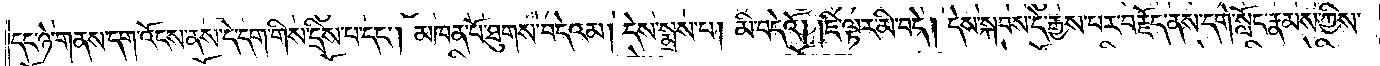དང་ཉེ་གནས་དག་འོངས་ནས་དེ་དག་གིས་དྲིས་པ་དང༌། མཁན་པོ་ཐུགས་བདེའམ། དེས་སྨྲས་པ། མི་བདེའོ། །ཇི་ལྟར་མི་བདེ། དེས་སྐབས་དེ་རྒྱས་པར་བརྗོད་ནས་དགེ་སློང་རྣམས་ཀྱིས་
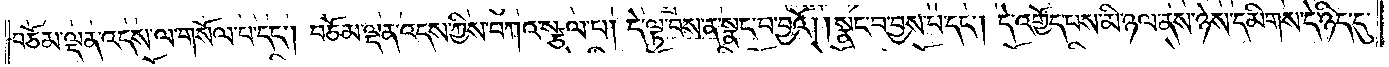བཅོམ་ལྡན་འདས་ལ་གསོལ་པ་དང༌། བཅོམ་ལྡན་འདས་ཀྱིས་བཀའ་སྩལ་པ། དེ་ལྟ་བས་ན་སྣང་བ་བྱའོ། །སྣང་བ་བྱས་པ་དང༌། དེ་འགྱོད་པས་མི་ཉལ་ནས་ཉེས་དམིགས་དེ་ཉིད་དུ་
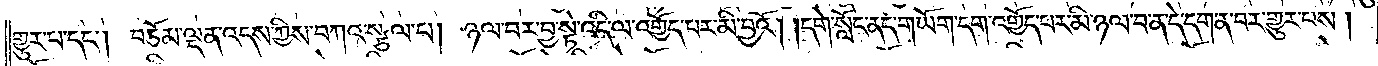གྱུར་པ་དང༌། བཅོམ་ལྡན་འདས་ཀྱིས་བཀའ་སྩལ་པ། ཉལ་བར་བྱ་སྟེ་འདི་ལ་འགྱོད་པར་མི་བྱའོ། །དགེ་སློང་ནད་གཡོག་དག་འགྱོད་པར་མི་ཉལ་བ་ན་དེ་དག་ན་བར་གྱུར་པས །
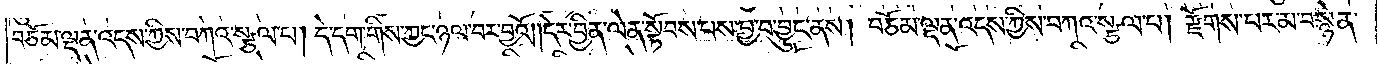བཅོམ་ལྡན་འདས་ཀྱིས་བཀའ་སྩལ་པ། དེ་དག་གིས་ཀྱང་ཉལ་བར་བྱའོ། །དེར་བྱིན་ལེན་སྟོབས་པས་བྱ་བ་བྱུང་ནས། བཅོམ་ལྡན་འདས་ཀྱིས་བཀའ་སྩལ་པ། རྫོགས་པར་མ་བསྙེན་
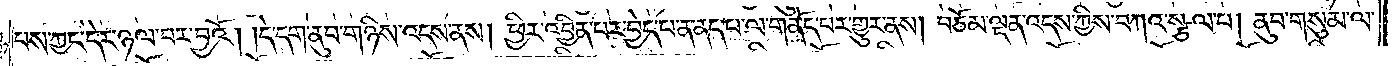པས་ཀྱང་དེར་ཉལ་བར་བྱའོ། །དེ་དག་ནུབ་གཉིས་འདས་ནས། ཕྱིར་འབྱིན་པར་བྱེད་པ་ན་ནད་པ་ལ་གནོད་པར་གྱུར་ནས། བཅོམ་ལྡན་འདས་ཀྱིས་བཀའ་སྩལ་པ། ནུབ་གསུམ་ལ་
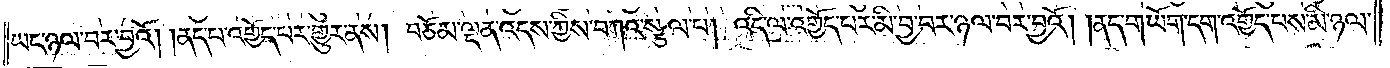ཡང་ཉལ་བར་བྱའོ། །ནད་པ་འགྱོད་པར་གྱུར་ནས། བཅོམ་ལྡན་འདས་ཀྱིས་བཀའ་སྩལ་པ། འདི་ལ་འགྱོད་པར་མི་བྱ་བར་ཉལ་བར་བྱའོ། །ནད་གཡོག་དག་འགྱོད་པས་མི་ཉལ་
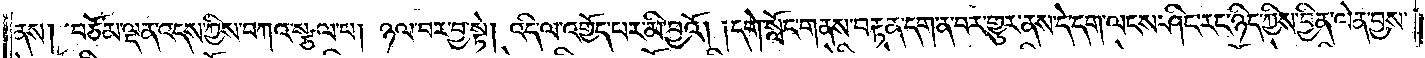ནས། བཅོམ་ལྡན་འདས་ཀྱིས་བཀའ་སྩལ་པ། ཉལ་བར་བྱ་སྟེ། འདི་ལ་འགྱོད་པར་མི་བྱའོ། །དགེ་སློང་གནས་བརྟན་དག་ན་བར་གྱུར་ནས་དེ་དག་ལངས་ཤིང་རང་ཉིད་ཀྱིས་བྱིན་ལེན་བྱས་
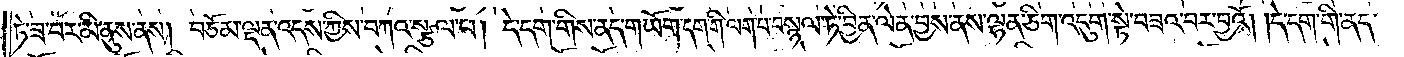ཏེ་ཟ་བར་མི་ནུས་ནས། བཅོམ་ལྡན་འདས་ཀྱིས་བཀའ་སྩལ་པ། དེ་དག་གིས་ནད་གཡོག་དག་གི་ལག་པ་བསྙལ་ཏེ་བྱིན་ལེན་བྱས་ནས་ལྷན་ཅིག་འདུག་སྟེ་བཟའ་བར་བྱའོ། །དེ་དག་གི་ནད་
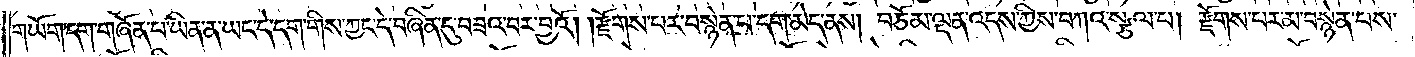གཡོག་དག་གཞོན་པ་ཡིན་ན་ཡང་དེ་དག་གིས་ཀྱང་དེ་བཞིན་དུ་བཟའ་བར་བྱའོ། །རྫོགས་པར་བསྙེན་པ་དག་མེད་ནས། བཅོམ་ལྡན་འདས་ཀྱིས་བཀའ་སྩལ་པ། རྫོགས་པར་མ་བསྙེན་པས་
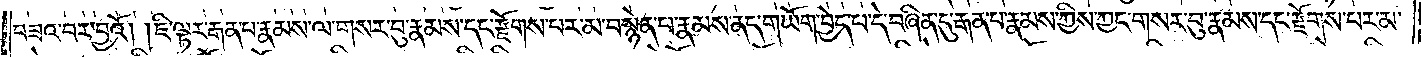བཟའ་བར་བྱའོ། །ཇི་ལྟར་རྒན་པ་རྣམས་ལ་གསར་བུ་རྣམས་དང་རྫོགས་པར་མ་བསྙེན་པ་རྣམས་ནད་གཡོག་བྱེད་པ་དེ་བཞིན་དུ་རྒན་པ་རྣམས་ཀྱིས་ཀྱང་གསར་བུ་རྣམས་དང་རྫོགས་པར་མ་
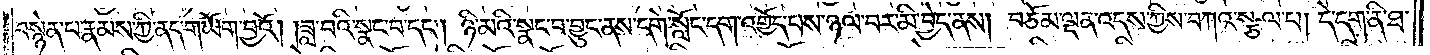བསྙེན་པ་རྣམས་ཀྱི་ནད་གཡོག་བྱའོ། །ཟླ་བའི་སྣང་བ་དང༌། ཉི་མའི་སྣང་བ་བྱུང་ནས་དགེ་སློང་དག་འགྱོད་པས་ཉལ་བར་མི་བྱེད་ནས། བཅོམ་ལྡན་འདས་ཀྱིས་བཀའ་སྩལ་པ། དེ་དག་ནི་ཐ་
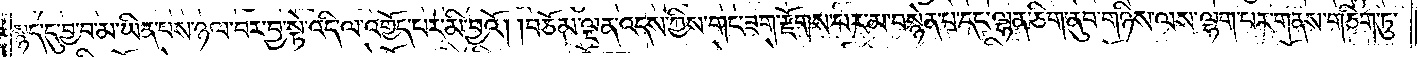སྙད་དུ་བྱ་བ་མ་ཡིན་པས་ཉལ་བར་བྱ་སྟེ་འདི་ལ་འགྱོད་པར་མི་བྱའོ། །བཅོམ་ལྡན་འདས་ཀྱིས་གང་ཟག་རྫོགས་པར་མ་བསྙེན་པ་དང་ལྷན་ཅིག་ནུབ་གཉིས་ལས་ལྷག་པར་གནས་གཅིག་ཏུ་
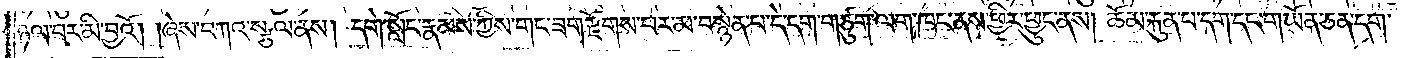ཉལ་བར་མི་བྱའོ། །ཞེས་བཀའ་སྩལ་ནས། དགེ་སློང་རྣམས་ཀྱིས་གང་ཟག་རྫོགས་པར་མ་བསྙེན་པ་དེ་དག་གཙུག་ལག་ཁང་ནས་ཕྱིར་ཕྱུང་ནས། ཆོམ་རྐུན་པ་དག་དང་གཡོན་ཅན་དག་
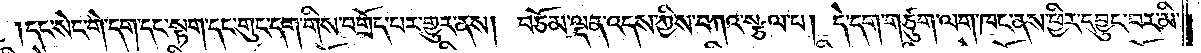དང་སེང་གེ་དག་དང་སྟག་དང་གུང་དག་གིས་བགྲོད་པར་གྱུར་ནས། བཅོམ་ལྡན་འདས་ཀྱིས་བཀའ་སྩལ་པ། དེ་དག་གཙུག་ལག་ཁང་ནས་ཕྱིར་དབྱུང་བར་མི་
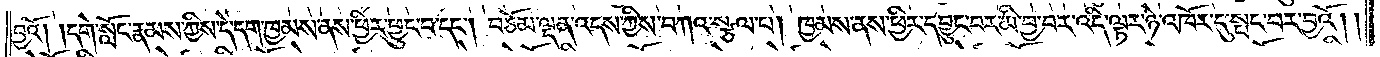བྱའོ། །དགེ་སློང་རྣམས་ཀྱིས་དེ་དག་ཁྱམས་ནས་ཕྱིར་ཕྱུང་བ་དང༌། བཅོམ་ལྡན་འདས་ཀྱིས་བཀའ་སྩལ་པ། ཁྱམས་ནས་ཕྱིར་དབྱུང་བར་མི་བྱ་བར་འདི་ལྟར་ཉེ་འཁོར་དུ་སྤང་བར་བྱའོ། །
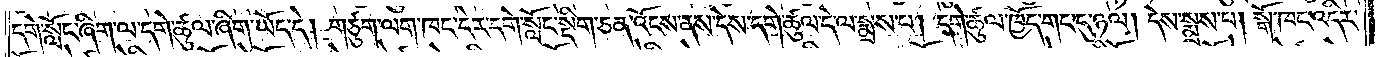དགེ་སློང་ཞིག་ལ་དགེ་ཚུལ་ཞིག་ཡོད་དེ། གཙུག་ལག་ཁང་དེར་དགེ་སློང་སྡིག་ཅན་འོངས་ནས་དེས་དགེ་ཚུལ་དེ་ལ་སྨྲས་པ། དགེ་ཚུལ་ཁྱོད་གང་དུ་ཉལ། དེས་སྨྲས་པ། སྒོ་ཁང་འདིར་
